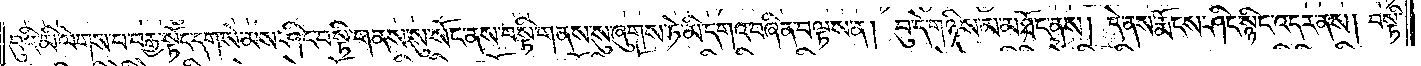བུའི་མི་ལེགས་པ་བརྒྱ་སྟོང་དག་སེམས་ཤིང་བསྟི་གནས་སུ་སོང་ནས་བསྟི་གནས་སུ་ཞུགས་ཏེ་མི་དགའ་བཞིན་བལྟས་ན། བུ་དེ་གཉིས་མ་མཐོང་ནས། དེ་ནས་རྨོངས་ཤིང་སྙིང་འདར་ནས། བསྟི་
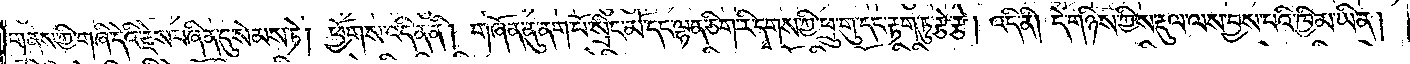གནས་ཀྱི་གཞི་དེའི་རྗེས་བཞིན་དུ་སེམས་ཏེ། ཕྱོགས་འདི་ན་ནི། གཞོན་ནུ་ནག་པོ་སྲིང་མོ་དང་ལྷན་ཅིག་རི་དྭགས་ཀྱི་ཕྲུ་གུ་དང་རྟག་ཏུ་རྩེ་རྩེ། འདི་ནི། དེ་གཉིས་ཀྱི་ས་རྡུལ་ལས་བྱས་པའི་ཁྱིམ་ཡིན།
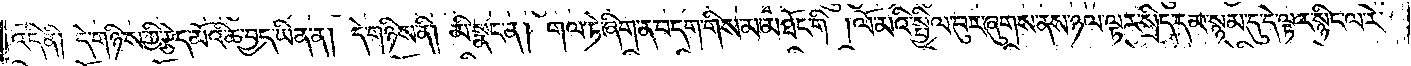འདི་ནི། དེ་གཉིས་ཀྱི་རྩེ་མོའི་ཆ་བྱད་ཡིན་ན། དེ་གཉིས་ནི། མི་སྣང་ན། གལ་ཏེ་ཞིག་ན་བདག་གིས་མ་མཐོང་གི །ལོ་མའི་སྤྱིལ་བུར་ཞུགས་ནས་ཉལ་ལྟར་སྲིད་དམ་སྙམ་དུ་དེ་ལྟར་སྙིང་ལ་རེ་
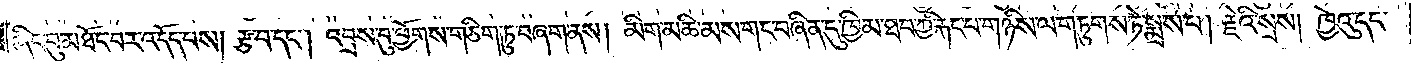ཞིང་བུ་མཐོང་བར་འདོད་པས། རྩ་བ་དང༌། འབྲས་བུ་ཕྱོགས་གཅིག་ཏུ་བཞག་ནས། མིག་མཆི་མས་གང་བཞིན་དུ་ཁྱིམ་ཐབ་ཀྱི་རྐང་པ་གཉིས་ལ་གཏུགས་ཏེ་སྨྲས་པ། རྗེའི་སྲས། ཁྱེའུ་དང་
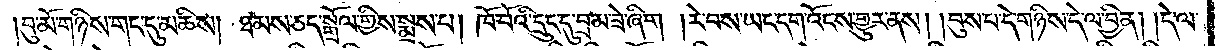བུ་མོ་གཉིས་གང་དུ་མཆིས། ཐམས་ཅད་སྒྲོལ་གྱིས་སྨྲས་པ། ཁོ་བོའི་དྲུང་དུ་བྲམ་ཟེ་ཞིག །རེ་བས་ཡང་དག་འོངས་གྱུར་ནས། །བུས་པ་དེ་གཉིས་དེ་ལ་བྱིན། །དེ་ལ་
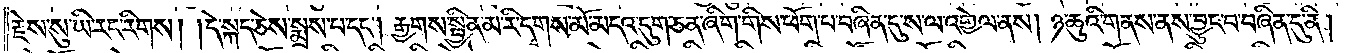རྗེས་སུ་ཡི་རང་རིགས། །དེ་སྐད་ཅེས་སྨྲས་པ་དང༌། རྒྱགས་སྦྱིན་མ་རི་དྭགས་མོ་མདའ་དུག་ཅན་ཞིག་གིས་ཕོག་པ་བཞིན་དུ་ས་ལ་འགྱེལ་ནས། ཉ་ཆུའི་གནས་ནས་བྱུང་བ་བཞིན་དུ་ནི།
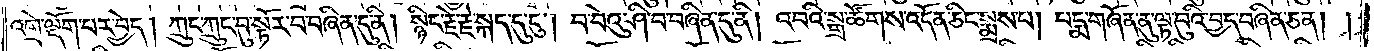འགྲེ་ལྡོག་པར་བྱེད། ཀྲུང་ཀྲུང་བུ་སྟོར་བ་བཞིན་དུ་ནི། སྙིང་རྗེ་རྗེ་སྐད་དུ་ངུ༌། བ་བེའུ་ཤི་བ་བཞིན་དུ་ནི། འབའི་སྒྲ་ཚོགས་འདོན་ཅིང་སྨྲས་པ། པདྨ་གཞོན་ནུ་ལྟ་བུའི་བྱད་བཞིན་ཅན། །
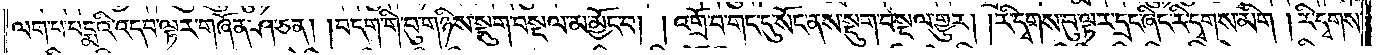ལག་པ་པདྨའི་འདབ་ལྟར་གཞོན་ཤ་ཅན། །བདག་གི་བུ་གཉིས་སྡུག་བསྔལ་མ་མྱོང་བ། །འགྲོ་བ་གང་དུ་སོང་ནས་སྡུག་བསྔལ་གྱུར། །རི་དྭགས་བུ་ལྟར་དྲང་ཞིང་རི་དྭགས་མིག །རི་དྭགས་
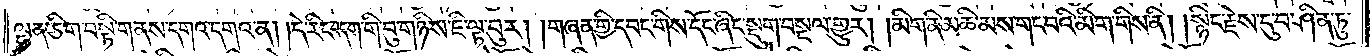ལྷན་ཅིག་བསྟི་གནས་དགའ་དགའ་ན། །དེ་རིང་བདག་གི་བུ་གཉིས་ཇི་ལྟ་བུར། །གཞན་གྱི་དབང་གིས་དོང་ཞིང་སྡུག་བསྔལ་གྱུར། །མིག་ནི་མཆི་མས་གང་བའི་མིག་གིས་ནི། །སྙིང་རྗེས་དུ་བ་ཤིན་ཏུ་
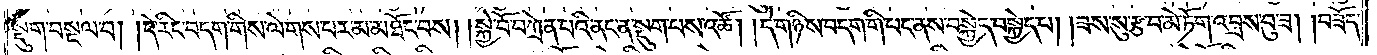སྡུག་བསྔལ་བ། །དེ་རིང་བདག་གིས་ལེགས་པར་མ་མཐོང་བས། །སྐྱེ་བོ་བཀྲེན་པའི་ནང་ན་སྡུག་པས་འཚོ། །དེ་གཉིས་བདག་གི་པང་ནས་བསྐྱེད་བསྐྱེད་པ། །ཟས་སུ་རྩ་བ་མེ་ཏོག་འབྲས་བུ་ཟ། །བཟོད་
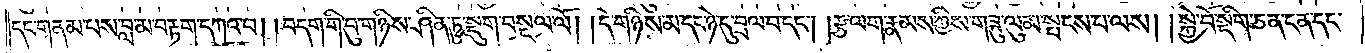དང་གནམ་པས་བླ་མ་བརྟག་དཀའ་བ། །བདག་གི་བུ་གཉིས་ཤིན་ཏུ་སྡུག་བསྔལ་ལོ། དེ་གཉིས་མ་དང་ཉེ་དུ་བྲལ་བ་དང༌། །རྩ་ལག་རྣམས་ཀྱིས་གཟུ་ལུམ་སྤངས་པ་ལས། །སྐྱེ་བོ་སྡིག་ཅན་ངན་དང་
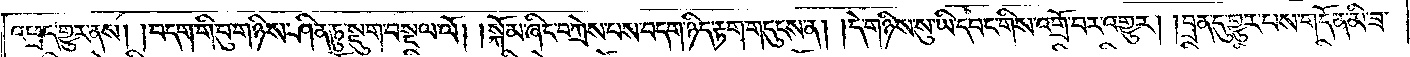འཕྲད་གྱུར་ནས། །བདག་གི་བུ་གཉིས་ཤིན་ཏུ་སྡུག་བསྔལ་ལོ། །སྐོམ་ཞིང་བཀྲེས་པས་བདག་ཉིད་རྟག་གདུངས་ན། །དེ་གཉིས་ཡིད་དབང་གིས་འགྲོ་བར་འགྱུར། །བྲན་དུ་གྱུར་པས་གདོན་མི་ཟ་
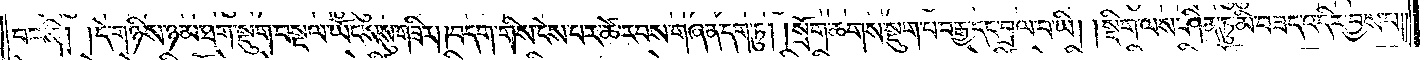བར་ནི། །དེ་གཉིས་ཉམ་ཐག་སྡུག་བསྔལ་ཡོངས་སུ་གཟིར། །བདག་གིས་ངེས་པར་ཚེ་རབས་གཞན་དག་ཏུ། །སྲོག་ཆགས་སྡུག་པ་བརྒྱ་དང་བྲལ་བ་ཡི། །སྡིག་ལས་ཤིན་ཏུ་མི་བཟད་འདིར་བྱས་པ་
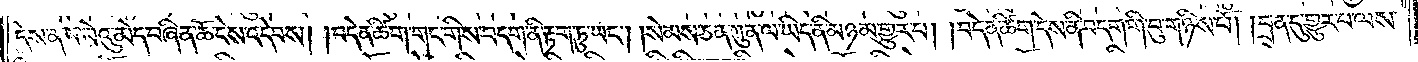དེས་ན་བ་བེའུ་མེད་བཞིན་ཆོ་ངེས་འདེབས། །བདེན་ཚིག་གང་གིས་བདག་ནི་རྟག་ཏུ་ཡང༌། །སེམས་ཅན་ཀུན་ལ་ཡིད་ནི་མཉམ་གྱུར་པ། །བདེན་ཚིག་དེས་ནི་བདག་གི་བུ་གཉིས་པོ། །བྲན་དུ་གྱུར་པ་ལས་
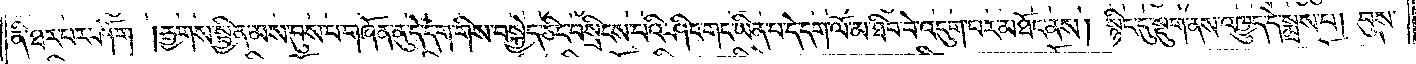ནི་ཐར་ཕར་ཤོག །རྒྱགས་སྦྱིན་མས་བུས་པ་གཞོན་ནུ་དེ་དག་གིས་བསྐྱེད་ཅིང་བསྲིངས་པའི་ཤིང་གང་ཡིན་པ་དེ་དག་ལོ་མ་ཐིབ་བེ་འདུག་པར་མཐོང་ནས། སྙིང་དུ་སྡུག་ནས་འཁྱུད་དེ་སྨྲས་པ། བུས་
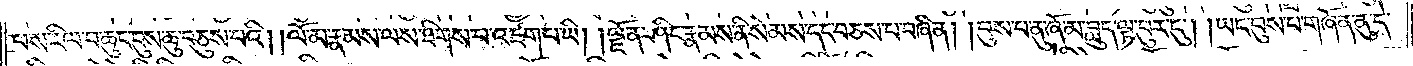པས་རིལ་བ་ཆུང་ངུས་ཆུ་བཅུས་པའི། །ལོ་མ་རྣམས་ལས་ཐིགས་པ་འཛག་པ་ཡི། །ལྗོན་ཤིང་རྣམས་ནི་སེམས་དང་བཅས་པ་བཞིན། །བུས་པ་ནུ་ཞོ་མ་བླུད་ལྟ་བུར་ངུ༌། །ཡང་བུས་པ་གཞོན་ནུ་དེ་
